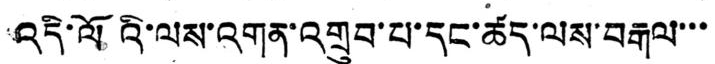འདི་ལོའི་ལས་འགན་འགྲུབ་པ་དང་ཚད་ལས་བརྒལ་་་
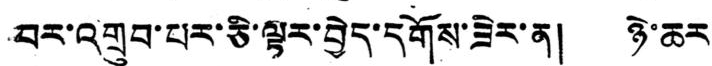བར་འགྲུབ་པར་ཅི་ལྟར་བྱེད་དགོས་ཟེར་ན། ཉེ་ཆར
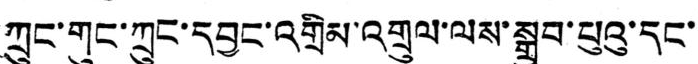ཀྲུང་གུང་ཀྲུང་དབྱང་འགྲིམ་འགྲུལ་ལས་སྒྲུབ་པུའུ་དང་
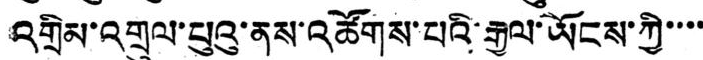འགྲིམ་འགྲུལ་པུའུ་ནས་འཚོགས་པའི་རྒྱལ་ཡོངས་ཀྱི་་་་
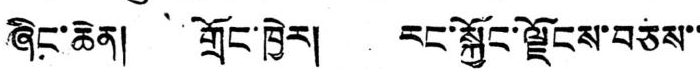ཞིང་ཆེན། གྲོང་ཁྱེར། རང་སྐྱོང་ལྗོངས་བཅས་་
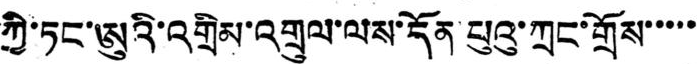ཀྱི་ཏང་ཨུའི་འགྲིམ་འགྲུལ་ལས་དོན་པུའུ་ཀྲང་གྲོས་་་་་
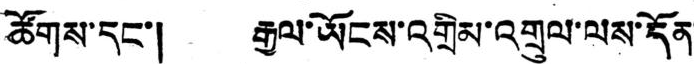ཚོགས་དང་། རྒྱལ་ཡོངས་འགྲིམ་འགྲུལ་ལས་དོན་
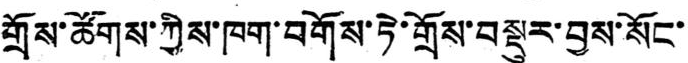གྲོས་ཚོགས་ཀྱིས་ཁག་བགོས་ཏེ་གྲོས་བསྡུར་བྱས་སོང་།
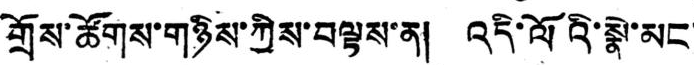གྲོས་ཚོགས་གཉིས་ཀྱིས་བལྟས་ན། འདི་ལོའི་སྣེ་མང་
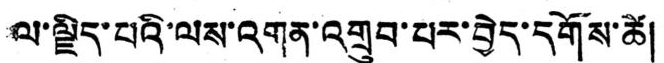ལ་ལྗིད་པའི་ལས་འགན་འགྲུབ་པར་བྱེད་དགོས་ཚེ།
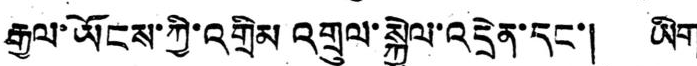རྒྱལ་ཡོངས་ཀྱི་འགྲིམ འགྲུལ་སྐྱེལ་འདྲེན་དང་། ཡིག
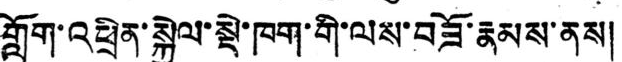གློག་འཕྲིན་སྐྱེལ་སྡེ་ཁག་གི་ལས་བཟོ་རྣམས་ནས།
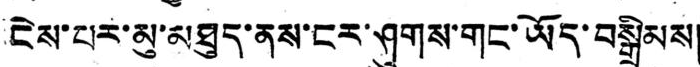ངེས་པར་མུ་མཐུད་ནས་ངར་ཤུགས་གང་ཡོད་བསྒྲིམས།
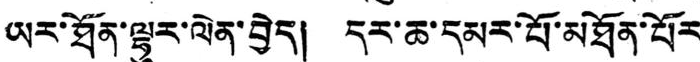ཡར་ཐོན་ལྷུར་ལེན་བྱེད། དར་ཆ་དམར་པོ་མཐོན་པོར
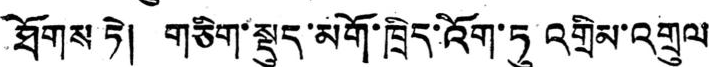ཐོགས ཏེ། གཅིག་སྡུད་མགོ་ཁྲིད་འོག་ཏུ་འགྲིམ་འགྲུལ
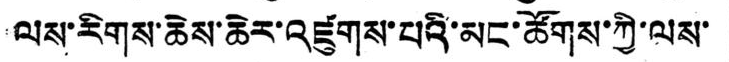ལས་རིགས་ཆེས་ཆེར་འཛུགས་པའི་མང་ཚོགས་ཀྱི་ལས་
